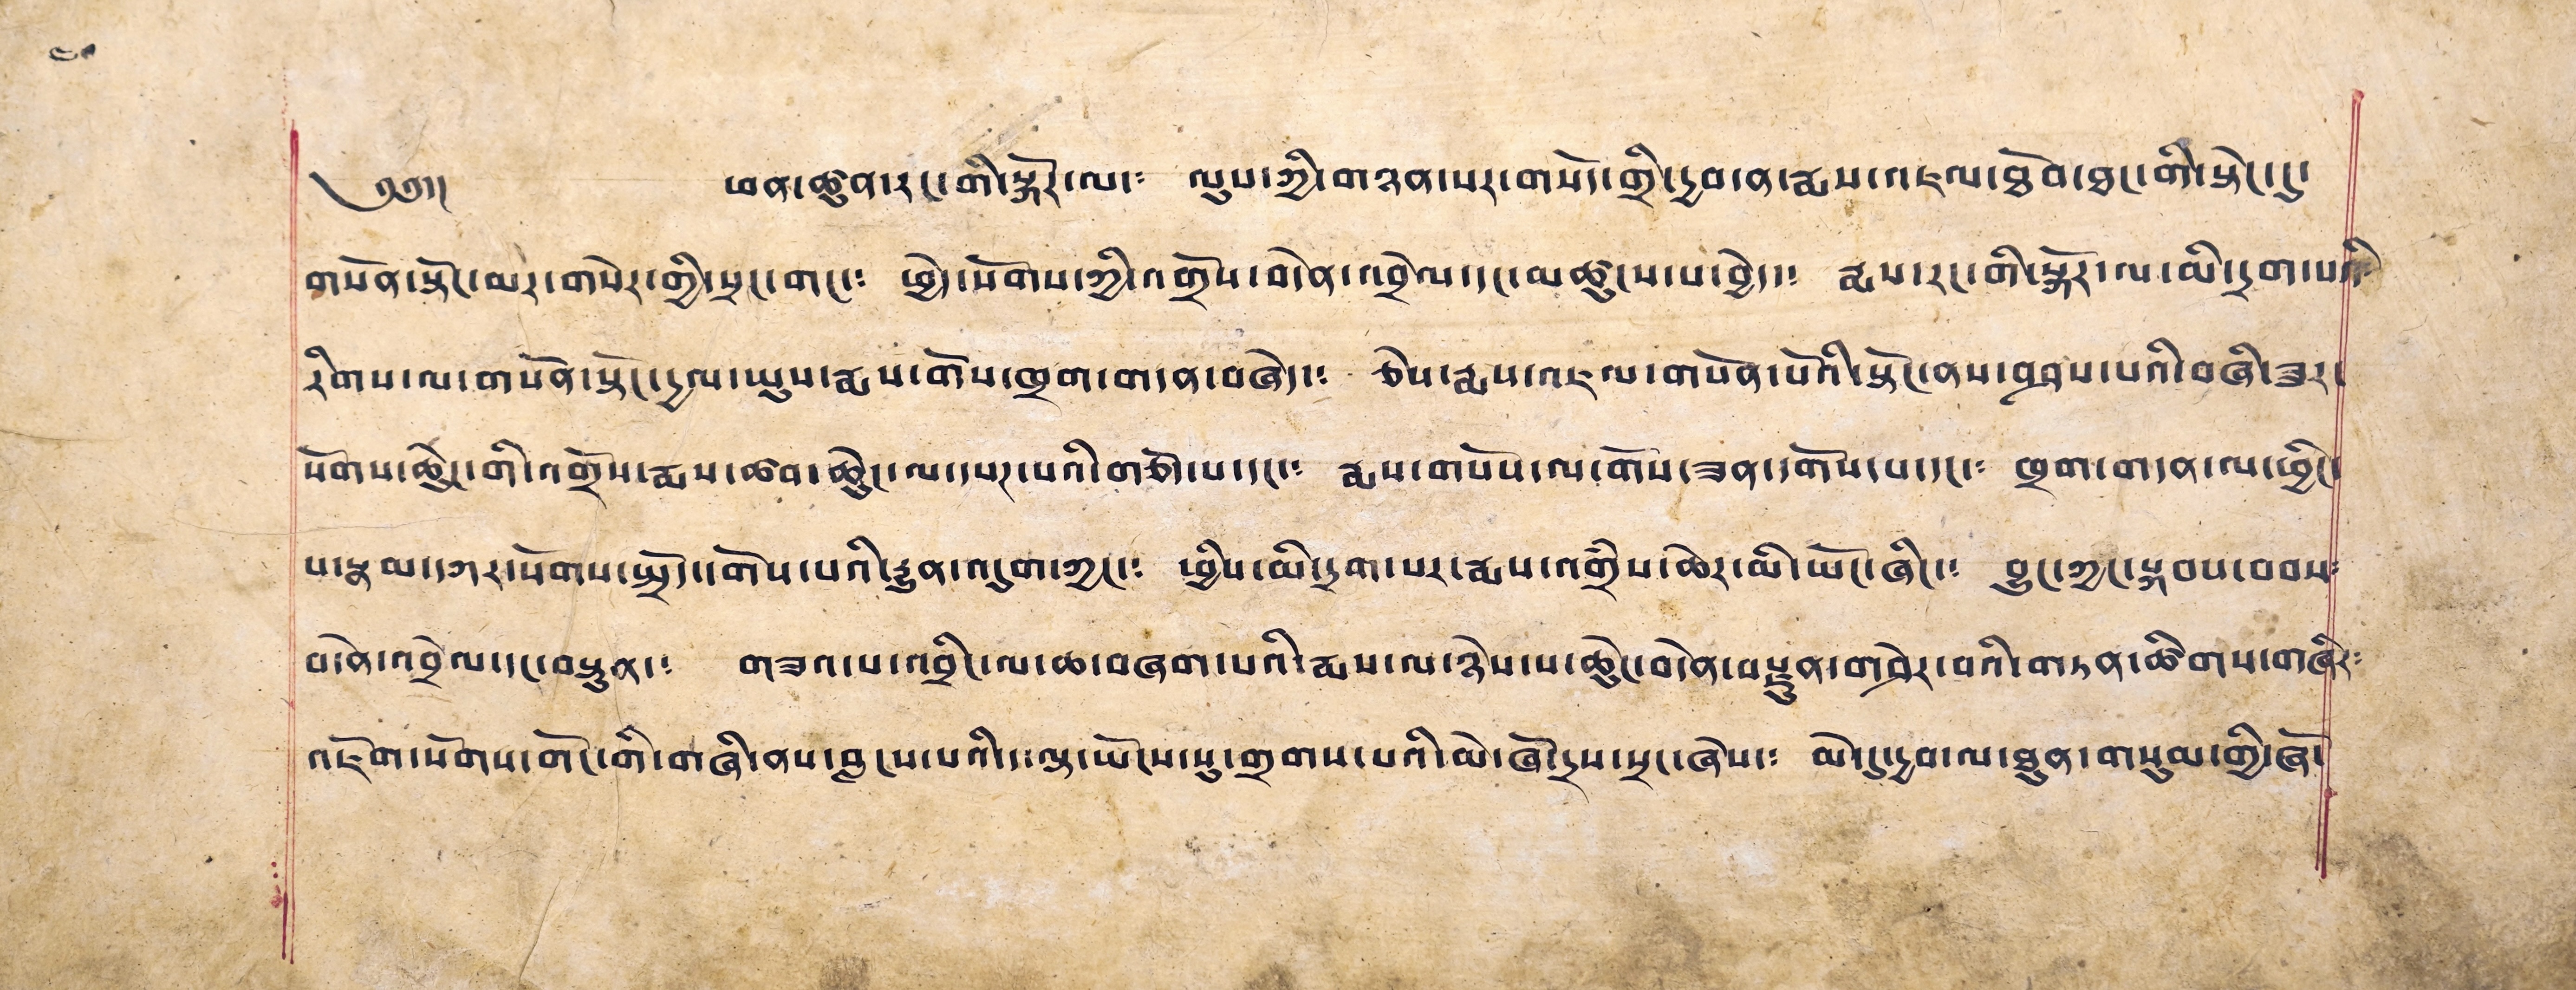༄༅།།  ཕན་ཚུན་རང་གི་སྐོར་ལ་༴ ལུས་ཀྱི་གཉན་པར་གསོད་གྲི་དྱབ་ན་རྨས་འཇལ་ཐོབ་ཐང་གི་སྟེང་དུ་
གསོན་སྟོང་མར་གསེར་གྱི་སྲང་གང་༴ ཕྱེད་སོགས་ཀྱི་འགྲོས་བདེན་འབྲེལ་དང་མཚུངས་པ་བྱེད་༴ རྨས་རང་གི་སྐོར་ལ་མི་དྲག་པའི་
རིགས་ལ་གསོན་སྟོང་དྱལ་ཡུས་རྨས་གོས་ཁྲག་གདན་བཞེད་༴ ཅེས་རྨས་འཇལ་གསོན་པོའི་སྟོང་ནས་བཤས་པའི་བཞི་ཟུར་
སོགས་ཆེུང་གི་འགྲོས་རྨས་ཚབ་ཆེུང་ལ་དཔཊ་པའི་གཅོད་པ་དང་༴ རྨས་གསོས་ལ་གོས་ཟན་དགོས་པ་དང་༴ ཁྲག་གདན་ལ་ཕྱིང་
པ་རྣམ་དཀར་སོགས་སྤྲོད་དགོས་པའི་དྱུན་འདུག་ཀྱང་༴ ཕྱིས་མི་དྲག་པར་རྨས་འགྲཾས་ཆེར་མི་ཡོང་ཞིང་༴ བྱུང་ཀྱང་སྐབས་བབས༴
བདེན་འབྲེལ་དང་བསྟུན་༴ གཟའ་པ་འབྲིང་ལ་ཆ་བཞག་པའི་རྨས་ལ་ཉེས་པ་ཆེུང་བདེན་བརྫུན་གཤེར་བའི་གཏན་ཚིགས་གཞིར༴
འཇོག་སོགས་གོང་གི་གཞི་ནས་བླངས་པའི་ད་ལྟ་ཡོངས་སུ་གྲགས་པའི་མེ་ཞོ་དྲས་སྲང་ཞེས་༴ མེ་དུ་དྱབ་ལ་ཐུན་གསུམ་གྱི་ཞོ་
